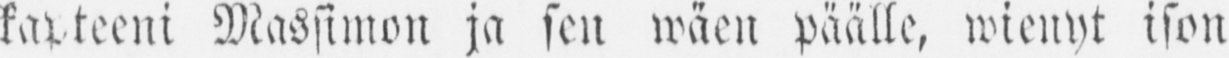kapteeni Massimon ja sen wäen päälle, wienyt ison
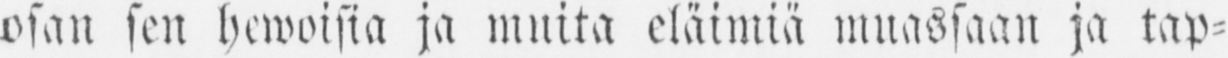osan sen hewoisia ja muita eläimiä muassaan ja tap-
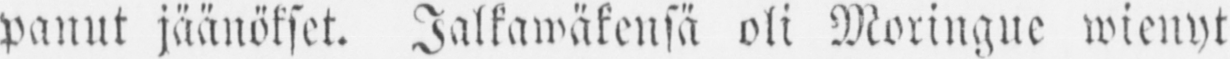panut jäänökset. Jalkawäkensä oli Moringne wienyt
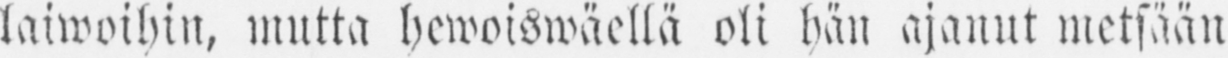laiwoihin, mutta hewoiswäellä oli hän ajanut metsään
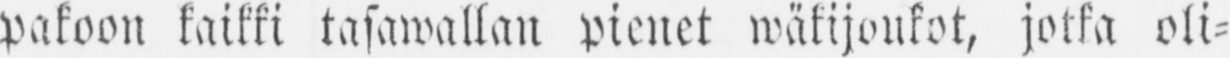pakoon kaikki tasawallan pienet wäkijoukot, jotka oli-
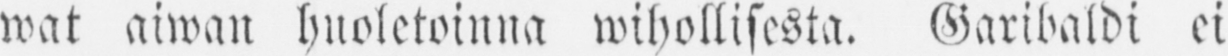wat aiwan huoletoinna wihollisesta. Garibaldi ei
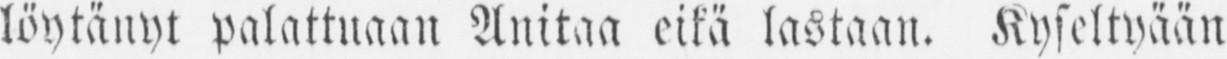löytänyt palattuaan Anitaa eikä lastaan. Kyseltyään
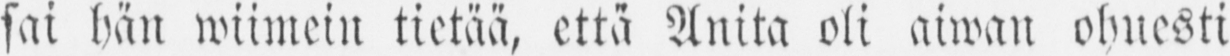sai hän wiimein tietää, että Anita oli aiwan ohuesti
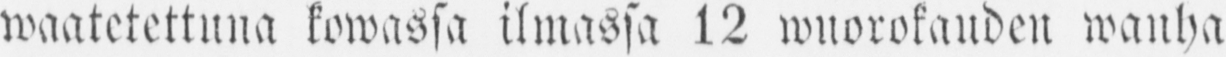waatetettuna kowassa ilmassa 12 wuorokauden wanha
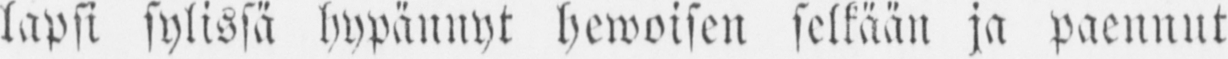lapsi sylissä hypännyt hewoisen selkään ja paennut
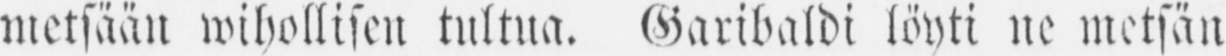metsään wihollisen tultua. Garibaldi löyti ne metsän
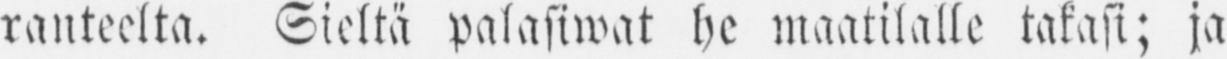ranteelta. Sieltä palasiwat he maatilalle takasi; ja
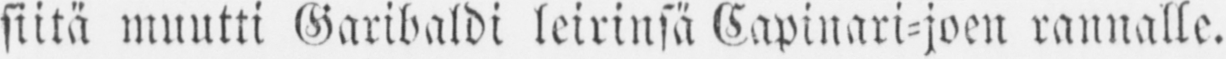siitä muutti Garibaldi leirinsä Capinari-joen rannalle.
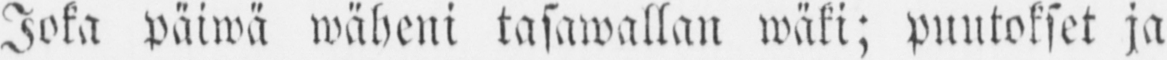Joka päiwä wäheni tasawallan wäki; puutokset ja
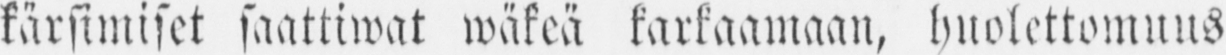kärsimiset saattiwat wäkeä karkaamaan, huolettomuus
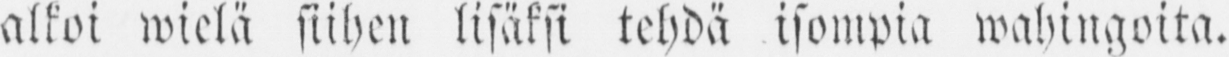alkoi wielä siihen lisäksi tehdä isompia wahingoita.
